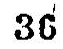36
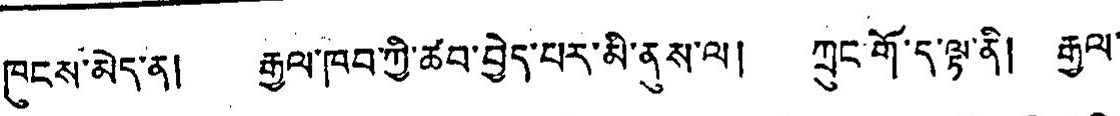ཁུངས་མེད་ན། རྒྱལ་ཁབ་ཀྱི་ཚབ་བྱེད་པར་མི་ནུས་ལ། ཀྲུང་གོ་ད་ལྟ་ནི། རྒྱལ་
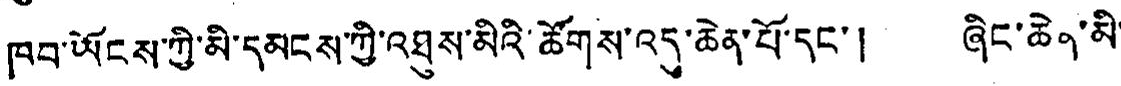ཁབ་ཡོངས་ཀྱི་མི་དམངས་ཀྱི་འཐུས་མིའི་ཚོགས་འདུ་ཆེན་པོ་དང་། ཞིང་ཆེན་མི་
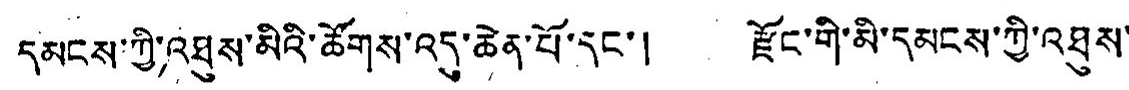དམངས་ཀྱི་འཐུས་མིའི་ཚོགས་འདུ་ཆེན་པོ་དང་། རྫོང་གི་མི་དམངས་ཀྱི་འཐུས་
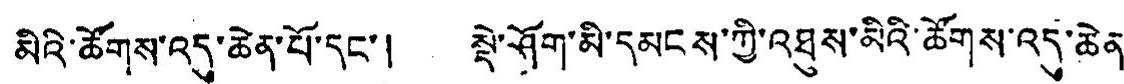མིའི་ཚོགས་འདུ་ཆེན་པོ་དང་། སྡེ་ཤོག་མི་དམངས་ཀྱི་འཐུས་མིའི་ཚོགས་འདུ་ཆེན་
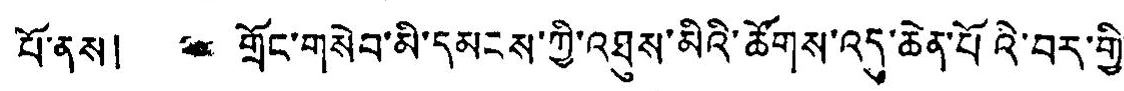པོ་ནས། གྲོང་གསེབ་མི་དམངས་ཀྱི་འཐུས་མིའི་ཚོགས་འདུ་ཆེན་པོའི་བར་གྱི་
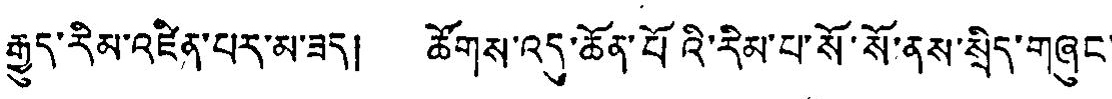རྒྱུད་རིམ་འཛིན་པར་མ་ཟད། ཚོགས་འདུ་ཆོན་པོའི་རིམ་པ་སོ་སོ་ནས་སྲིད་གཞུང་
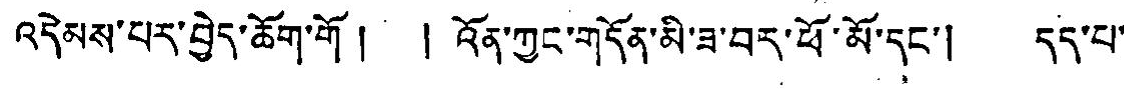འདེམས་པར་བྱེད་ཆོག་གོ ། ། འོན་ཀྱང་གདོན་མི་ཟ་བར་ཕོ་མོ་དང་། དད་པ་
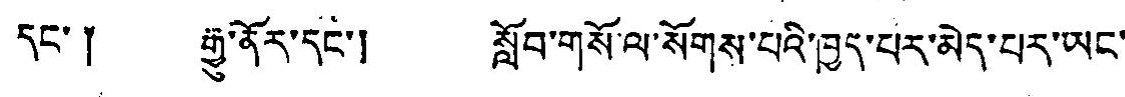དང་༐ རྒྱ་ནོར་དང་། སློབ་གསོ་ལ་སོགས་པའི་ཁྱད་པར་མེད་པར་ཡང་
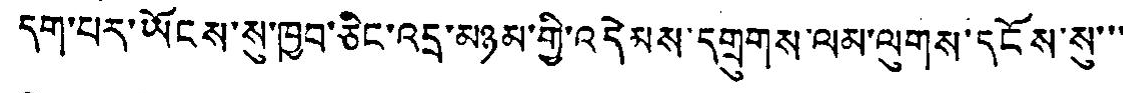དག་པར་ཡོངས་སུ་ཁྱབ་ཅིང་འདྲ་མཉམ་གྱི་འདེམས་དགྲུགས་ལམ་ལུགས་དངོས་སུ་་་
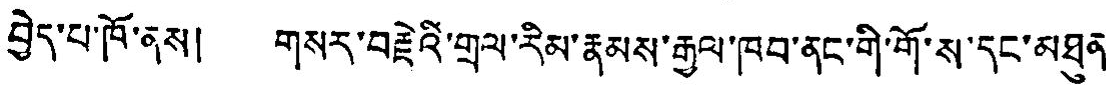བྱེད་པ་ཁོ་ནས། གསར་བརྗེའི་གྲལ་རིམ་རྣམས་རྒྱལ་ཁབ་ནང་གི་གོ་ས་དང་མཐུན་
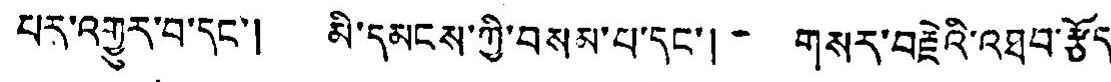པར་འགྱུར་བ་དང་། མི་དམངས་ཀྱི་བསམ་པ་དང་། གསར་བརྗེའི་འཐབ་རྩོད་
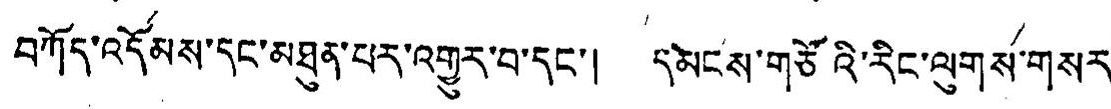བཀོད་འདོམས་དང་མཐུན་པར་འགྱུར་བ་དང་། དམངས་གཙོའི་རིང་ལུགས་གསར་
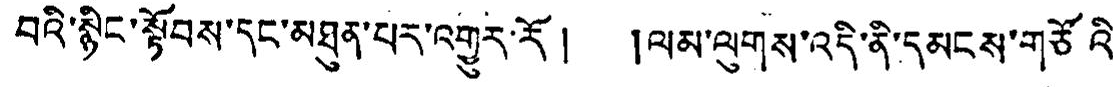བའི་སྙིང་སྟོབས་དང་མཐུན་པར་འགྱུར་རོ། །ལམ་ལུགས་འདི་ནི་དམངས་གཙོའི་
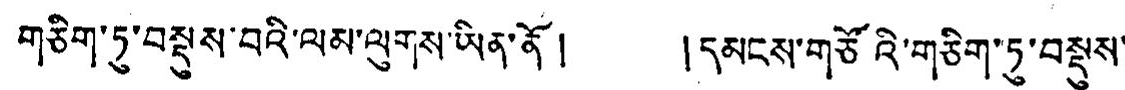གཅིག་ཏུ་བསྡུས་བའི་ལམ་ལུགས་ཡིན་ནོ། །དམངས་གཙོའི་གཅིག་ཏུ་བསྡུས་
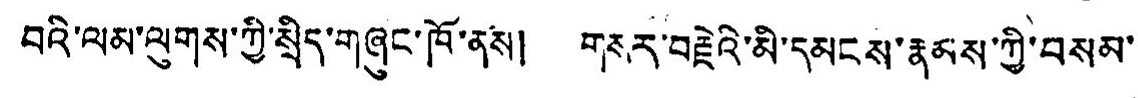བའི་ལམ་ལུགས་ཀྱི་སྲིད་གཞུང་ཁོ་ནས། གསར་བརྗེའི་མི་དམངས་རྣམས་ཀྱི་བསམ་
